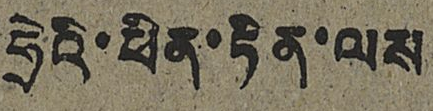ཧྲེའི་ཕིན་ཏིན་ལས
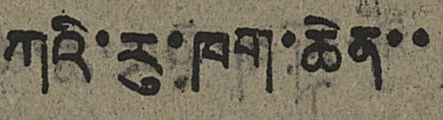ཀའི་རུ་ཁག་ཆེན་་
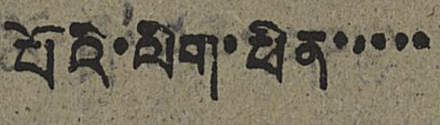པོའི་ལིག་ཕིན་་་་་
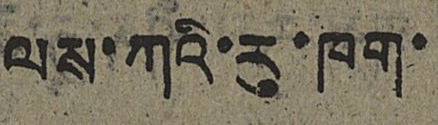ལས་ཀའི་རུ་ཁག་
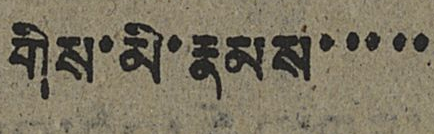གིས་མི་རྣམས་་་་་
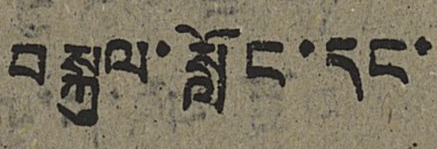བསྐུལ་སློང་དང་
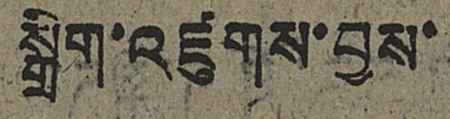སྒྲིག་འཛུགས་བྱས་
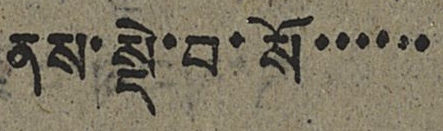ནས་སྡེ་བ་སོ་་་་་་
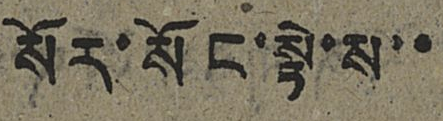སོར་སོང་སྟེ་ས་་
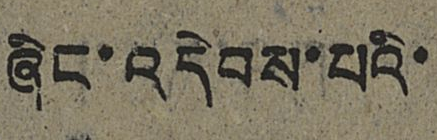ཞིང་འདེབས་པའི་
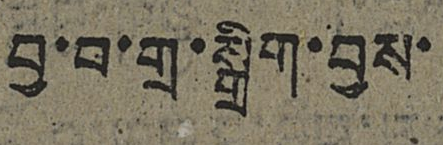བྱ་བ་གྲ་སྒྲིག་བྱས་
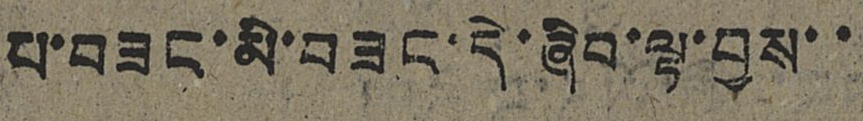པ་བཟང་མི་བཟང་དེ་ཞིབ་ལྟ་བྱས་་
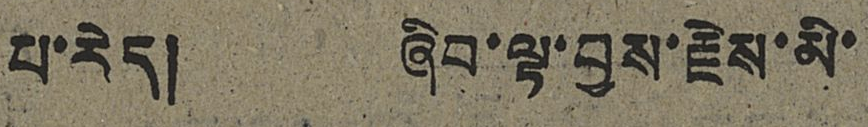པ་རེད། ཞིབ་ལྟ་བྱས་རྗེས་མི་
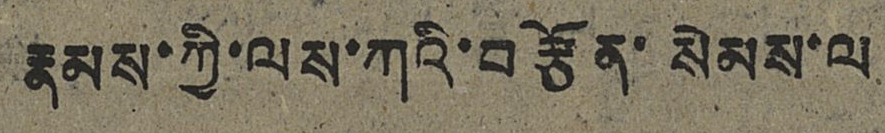རྣམས་ཀྱི་ལས་ཀའི་བརྩོན་སེམས་ལ
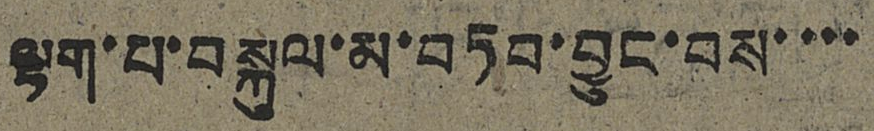ལྟག་པ་བསྐུལ་མ་བཏབ་བྱུང་བས་་་་
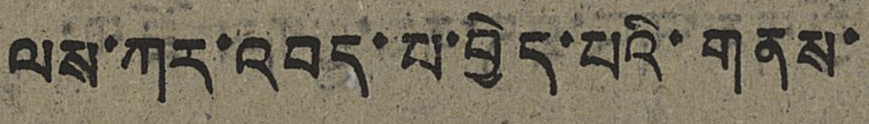ལས་ཀར་འབད་པ་བྱེད་པའི་གནས་
